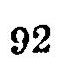92
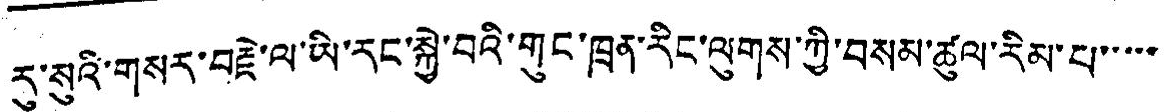རུ་སུའི་གསར་བརྗེ་ལ་ཡི་རང་སྐྱེ་བའི་གུང་ཁྲན་རིང་ལུགས་ཀྱི་བསམ་ཚུལ་རིམ་པ་་་་་
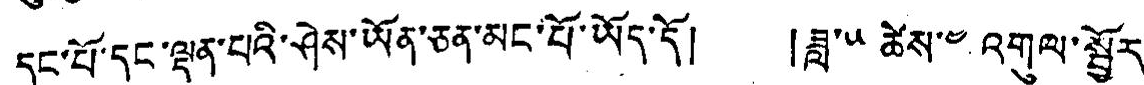དང་པོ་དང་ལྡན་པའི་ཤེས་ཡོན་ཅན་མང་པོ་ཡོད་དོ། །ཟླ་༥ ཚེས་༤ འགུལ་སྦྱོར་
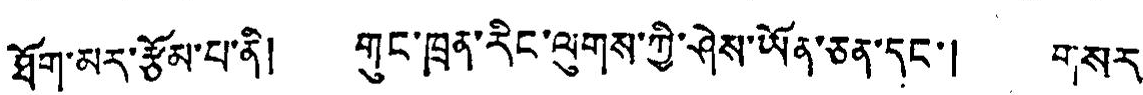ཐོག་མར་རྩོམ་པ་ནི། གུང་ཁྲན་རིང་ལུགས་ཀྱི་ཤེས་ཡོན་ཅན་དང་། གསར་
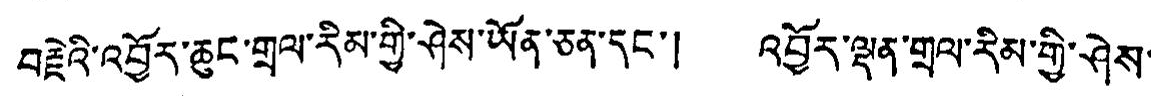བརྗེའི་འབྱོར་ཆུང་གྲལ་རིམ་གྱི་ཤེས་ཡོན་ཅན་དང་། འབྱོར་ལྡན་གྲལ་རིམ་གྱི་ཤེས་
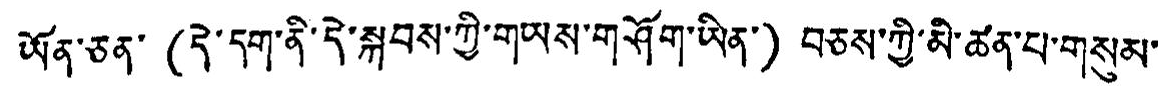ཡོན་ཅན་(དེ་དག་ནི་དེ་སྐབས་ཀྱི་གམས་གཤོག་ཡིན་) བཅས་ཀྱི་མི་ཚན་པ་གསུམ་
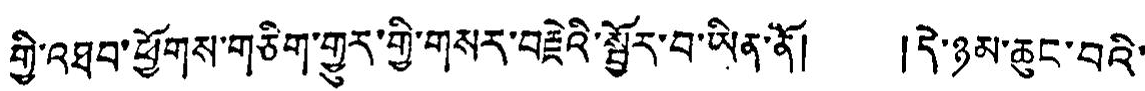གྱི་འཐབ་ཕྱོགས་གཅིག་གྱུར་གྱི་གསར་བརྗེའི་སྦྱོར་བ་ཡིན་ནོ། །དེ་ཉམ་ཆུང་བའི་
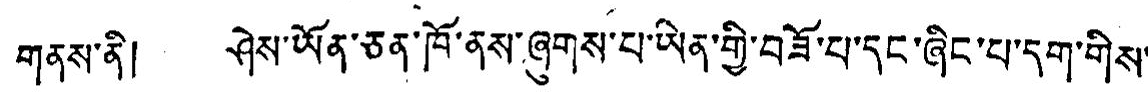གནས་ནི། ཤེས་ཡོན་ཅན་ཁོ་ནས་ཞུགས་པ་ཡིན་གྱི་བཟོ་པ་དང་ཞིང་པ་དག་གིས་
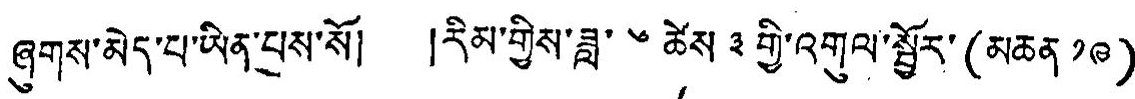ཞུགས་མེད་པ་ཡིན་པས་སོ། །རིམ་གྱིས་ཟླ་༦ ཚེས་༣ གྱི་འགུལ་སྦྱོར་(མཆན་ ༡༩)
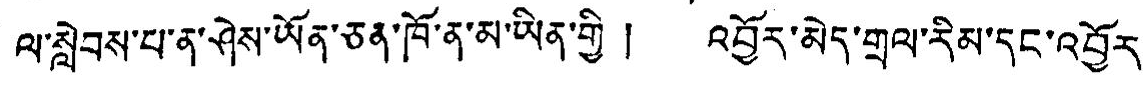ལ་སླེབས་པ་ན་ཤེས་ཡོན་ཅན་ཁོ་ན་མ་ཡིན་གྱི ། འབྱོར་མེད་གྲལ་རིམ་དང་འབྱོར་
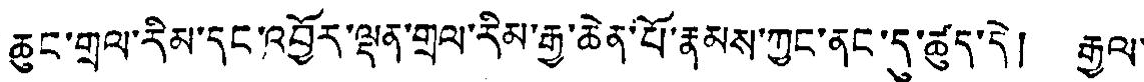ཆུང་གྲལ་རིམ་དང་འབྱོར་ལྡན་གྲལ་རིམ་རྒྱུ་ཆེན་པོ་རྣམས་ཀྱང་ནང་དུ་ཚུད་དེ། རྒྱལ་
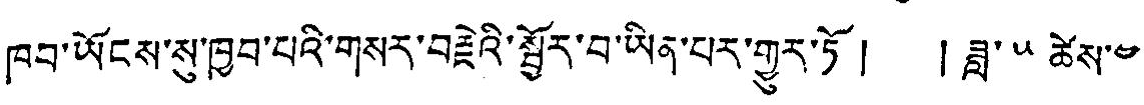ཁབ་ཡོངས་སུ་ཁྱབ་པའི་གསར་བརྗེའི་སྦྱོར་བ་ཡིན་པར་གྱུར་ཏོ། ། ཟླ་༥ ཚེས་༤
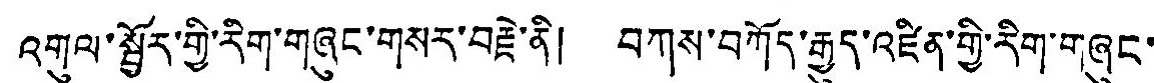འགུལ་སྦྱོར་གྱི་རིག་གཞུང་གསར་བརྗེ་ནི། བཀས་བཀོད་རྒྱུད་འཛིན་གྱི་རིག་གཞུང་།
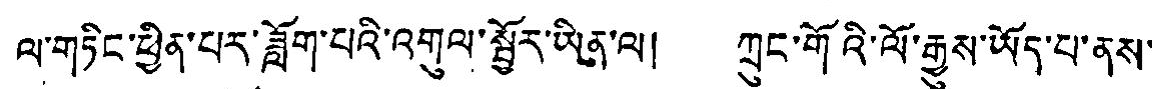ལ་གཏིང་ཕྱིན་པར་ཟློག་པའི་འགུལ་སྦྱོར་ཡིན་ལ། ཀྲུང་གོའི་ལོ་རྒྱུས་ཡོད་པ་ནས་
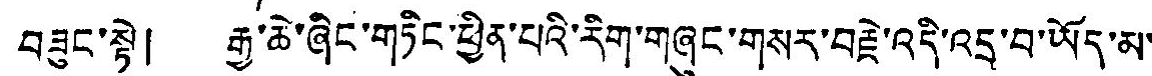བཟུང་སྟེ། རྒྱ་ཆེ་ཞིང་གཏིང་ཕྱིན་པའི་རིག་གཞུང་གསར་བརྗེ་འདི་འདྲ་བ་ཡོད་མ་
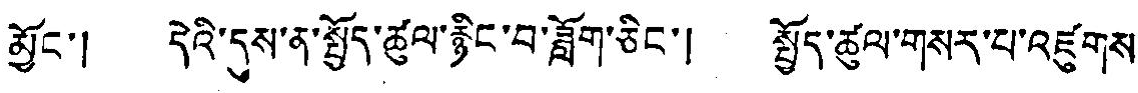མྱོང་། དེའི་དུས་ན་སྤྱོད་ཚུལ་རྙིང་བ་ཟློག་ཅིང་། སྤྱོད་ཚུལ་གསར་པ་འཛུགས་
